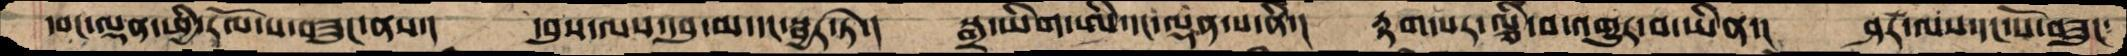དབང་ལྡན་ཕྱི་རོལ་པ་བཟུང་ནས་།  དབུས་ལས་དབུ་མ་དང་སྦྱར་ཏེ་།  སྒྲ་ཡིག་ཨི་དང་ལྡན་པ་ནི་།  རྟག་པར་ལྕི་བ་འགྱུར་བ་ཡིན་།  ཤར་ལས་དང་པོ་བཟུང་
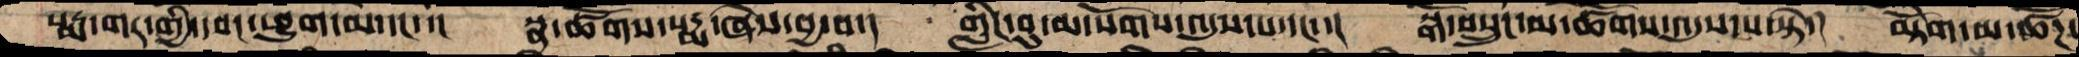པདྨ་གར་གྱི་དབང་ཕྱུག་མ་དང་་།  སྣ་ཚོགས་པདྨ་ཞེས་བྱ་བ་།  གླིང་བུ་མ་སོགས་འདུས་པ་དང་་།  སྒོ་བསྲུང་མ་ཚོགས་འདུས་པ་སྟེ་།  མྟེོག་མ་ཚོཌ་
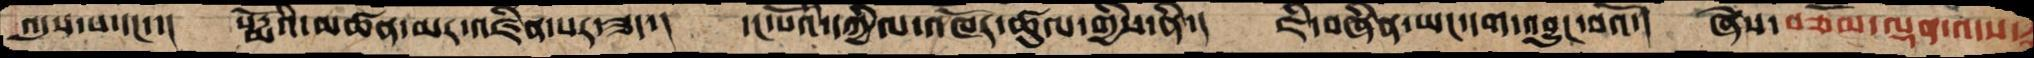འདུས་པ་དང་།  པདྨོའི་མཚན་མར་འཛིན་པར་ཟད་།  དང་པོའི་དཀྱིལ་འཁོར་ཚུལ་གྱིས་ནི་།  ཇི་བཞིན་ཡང་དག་འབྱུང་བའོ་།  ཞེས་བཅོམ་ལྡན་འདས་
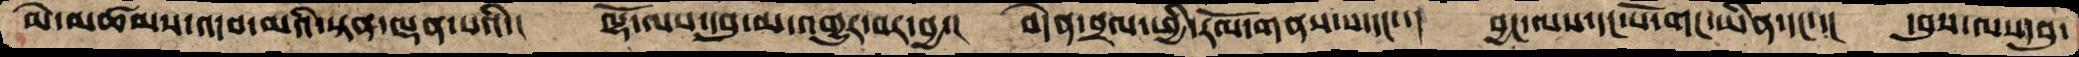མེ་མཚམས་འདབ་མའི་སྟན་ལྡན་པའི་།  ལྷོ་ལས་དབུ་མ་འགྱུར་བར་བྱ་།   བདེན་བྲལ་ཕྱི་རོལ་གནས་པ་དང་་།  བྱང་ལས་དང་པོ་གང་ཡིན་དང་་།  དབུས་ལས་དབུ་
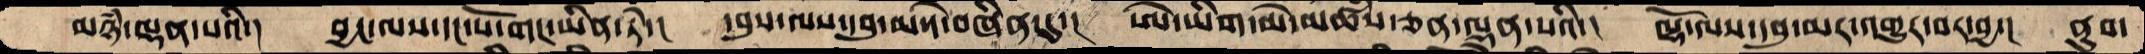མཉཾ་ལྡན་པའི་།  བྱང་ལས་དང་པོ་གང་ཡིན་ཏེ་།  དབུས་ལས་དབུ་མ་དེ་བཞིན་དུ་།  ཨེ་ཡིག་མེ་མཚཾས་ཅན་ལྡན་པའི་།  ལྷོ་ལས་དབུ་མར་འགྱུར་བར་བྱ་།  ནུབ་
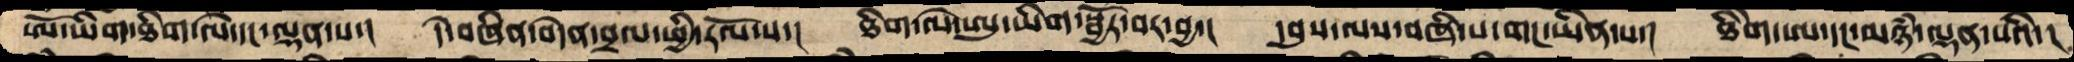ཨོ་ཡིག་ཐིག་ལེ་དང་ལྡན་པ་།  དེ་བཞིན་བདེན་བྲལ་ཕྱི་རོལ་པ་།  ཐིག་ལེ་ཨུ་ཡིག་སྦྱོར་བར་བྱ་།  དབུས་ལས་བཞི་པ་གང་ཡིན་པ་།  ཐིེག་ཨ་དང་མཉཾ་ལྡན་པའི་།
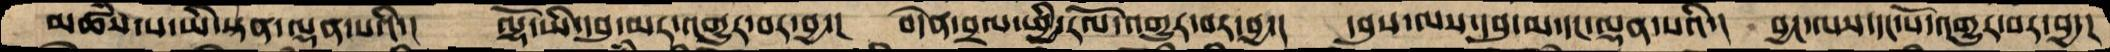མཚཾས་པ་ཡི་སྟན་ལྡན་པའི་།  ལྷོ་ཡི་དབུ་མར་འགྱུར་བར་བྱ་།   བདེན་བྲལ་ཕྱི་རོལ་འགྱུར་བར་བྱ་།  དབུས་ལས་དབུ་མ་དང་ལྡན་པའི་།  བྱང་ལས་དང་པོ་འགྱུར་བར་བྱ་།
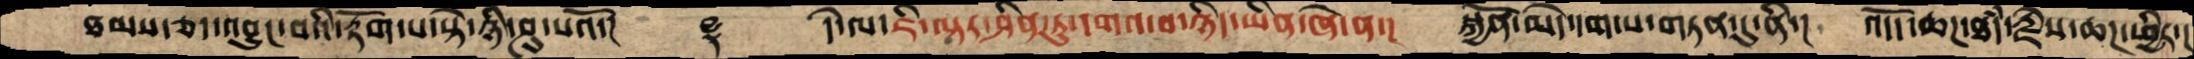ཐམས་ཅད་འབྱུང་བའི་རྟོག་པ་སྟེ་ཉི་ཤུ་པའོ་།    ࿑   དེ་ལ་ཇི་ལྟར་ཤིན་ཏུ་དགའ་བ་ཉིད་ཡིན་ཞེ་ན་།  སྐྱོན་མེད་དག་པ་གཏན་དུ་ནི་།  འདོད་ཆཌ་རྗེས་ཆཌ་ཕྱིར་
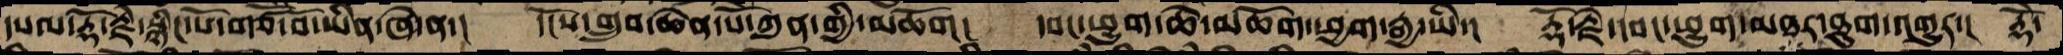དཔལ་རྡོ་རྗེ་སྙིང་པོ་གཙོ་བོ་ཡིན་ཞེ་ན་།  དངོས་གྲུབ་ཆེན་པོ་ཀུན་གྱི་མཆོག།  དབང་ཕྱུག་ཆེ་མཆོག་ཕྱག་རྒྱ་ཡི་།  རྡོ་རྗེ་དབང་ཕྱུག་མཐར་ཐུག་འགྱུར་།  རྡོེ་
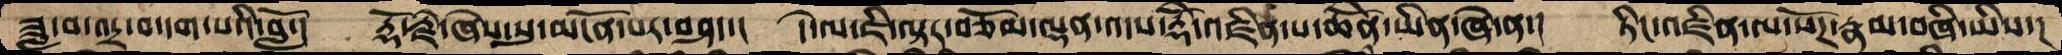ཟླ་བ་འདྲ་བ་དག་པའི་བློ་།  རྡོ་རྗེ་ཞེས་སུ་མངོན་པར་བཤད་།  དེ་ལ་ཇི་ལྟར་བཅོམ་ལྡན་འདས་རྡོེ་འཛིན་པ་ཆེནོ་ཡིན་ཞེ་ན་།  ཏིང་འཛིན་ལ་སོཌ་རྣམ་བཞི་ཡིས་།
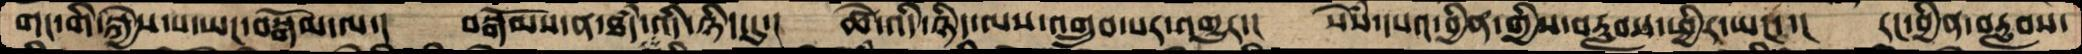གངགི་སྐྱེས་པ་ཡང་བསྒོམ་ལ་།  བསྒོམས་ན་ཐཾད་འདི་ཉིད་དུ་།  ཚེ་འདི་ཉིདལས་འགྲུབ་པར་འགྱུར་།  སེཾས་དཔའ་བྱིན་གྱིས་བརླབས་ཕྱིར་ཡང་་།  རང་བྱིན་བརླབས་
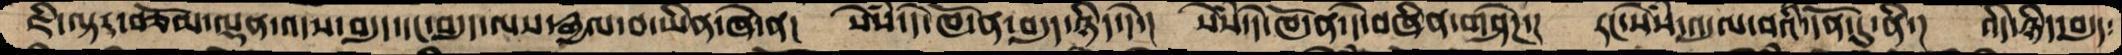ཇི་ལྟར་བཅོམ་ལྡན་འདས་བདུད་དང་བདུད་ལས་རྒྱལ་བ་ཡིན་ཞེ་ན་།  སེཾས་དེ་ཁོ་ན་བདུད་ཉིད་དེ་།  སེཾས་དེ་ཁོ་ན་དེ་བཞིན་གཤེཌ་།  རང་སེཾས་འདུལ་བའི་དོན་དུ་ནི་།  འདི་ཉིད་བདུད་
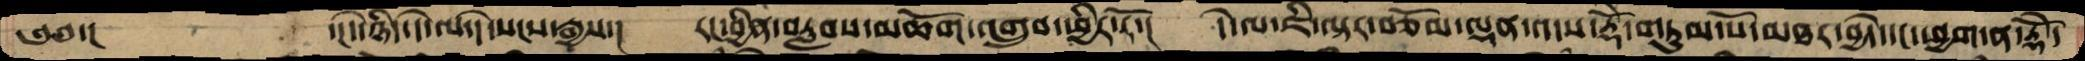༄༅་།     ་།དེ་ཉིད་དེ་ལ་དེ་སངས་རྒྱས་།  རང་བྱིན་བརླབས་མཆོག་འགྲུབ་ཕྱིར་རོ་།  དེ་ལ་ཇི་ལྟར་བཅོམ་ལྡན་འདས་རྡོེ་གཏུམ་པོ་མཐར་བྱེད་དང་ཕྱག་ན་རྡོེ་
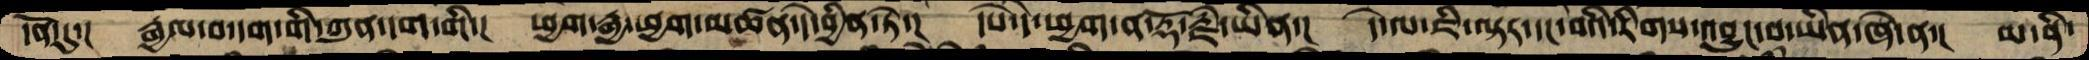དོན་དུ་།  རྒྱལ་བ་དག་གི་ཀུན་དག་གི་།  ཕྱག་རྒྱ་ཕྱག་མཚན་དེ་བྱིན་ཏེ་།  དཔེ་དེ་ཕྱག་ན་རྡོ་རྗེ་ཡིན་།  དེ་ལ་ཇི་ལྟར་དང་བའི་རིགས་འབྱུང་བ་ཡིན་ཞེ་ན་།  མ་ནི་
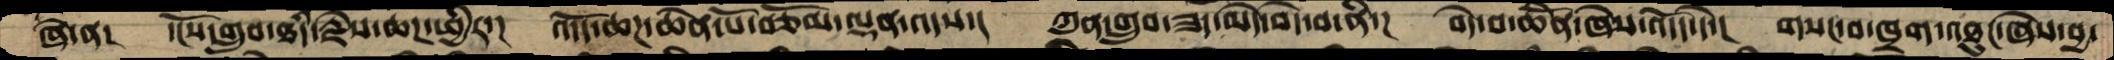ཞེ་ན།  དངོས་གྲུབ་ཐདཾ་རྗེས་ཆཌ་ཕྱིར་།  འདོད་ཆཌ་ཆེན་པོ་བཅོམ་ལྡན་འདས་།  ཀུན་གྲུབ་ཟད་མེད་བདེ་བ་ནི་།  བདེ་བ་ཆེོན་ཞེས་འདོད་དེ་།  གསང་བ་ཁྲག་འཐུང་ཞེས་བྱ་
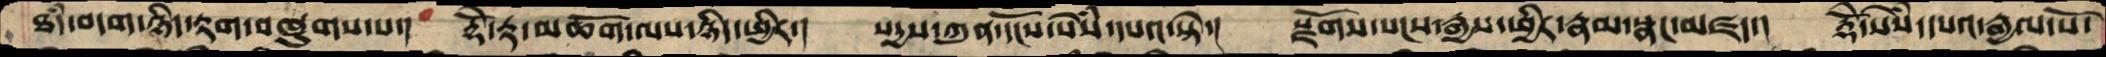ཐདཾ་བདག་ཉིད་རྟག་བཞུགས་པ་།  རྡོེ་རྟ་མཆོག་ལས་ཉིད་ཕྱིར་།  སདྱས་ཀུན་དངོས་སེཾས་དཔའ་སྟེ་།  སྫོགས་སངས་རྒྱས་ཕྱིར་རྣམ་སྣང་མཛད་།  རྡོེ་སེཾས་དཔའ་རྒྱལ་པོ་
